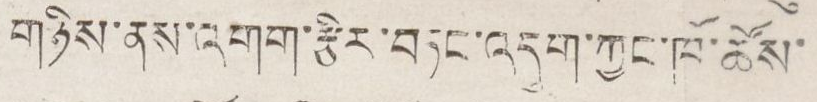གཉིས་ནས་འགག་རྩིར་བཏང་འདུག་ཀྱང་ཁོ་ཚོས་
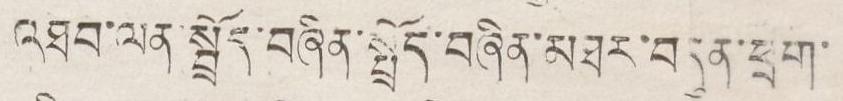འཐབ་ལན་སྦྲོད་བཞིན་སྤྲོད་བཞིན་མཐར་བདུན་ཕྲག་
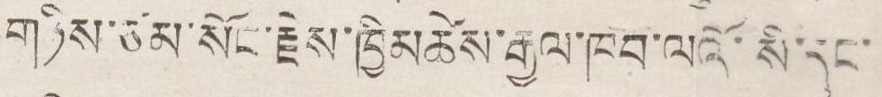གཉིས་ཙམ་སོང་རྗེས་ཁྱིམཚེས་རྒྱལ་ཁབ་ལའོ་སི་དང་
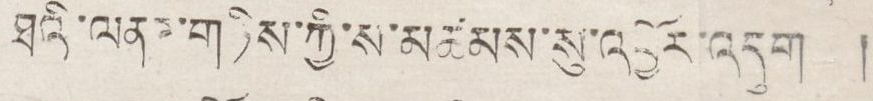ཐའི་ལནཌ་གཉིས་ཀྱི་མཚམས་སུ་འབྱོར་འདུག །
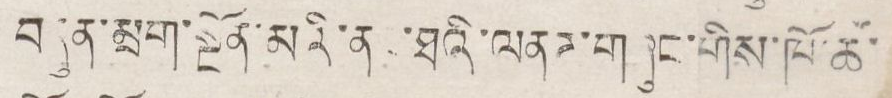བདུན་ཕྲག་སྔོན་མའི་ནང་ཐའི་ལནཌ་གཞུང་གིས་ཁོ་ཚོ་
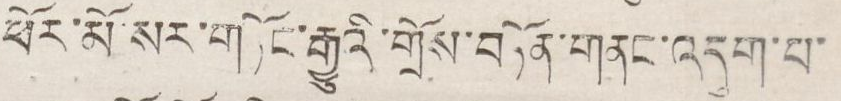ཕོར་མོ་སར་གཏོང་རྒྱུའི་གྲོས་བཏོན་གནང་འདུག་པ་
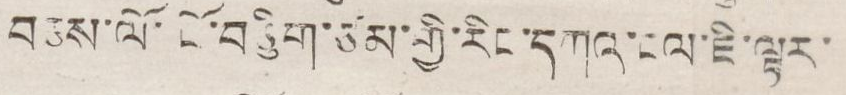བཅས་ལོ་ངོ་བཅིུག་ཙམ་གྱི་རིང་དཀའ་ངལ་ཇི་ལྟར་
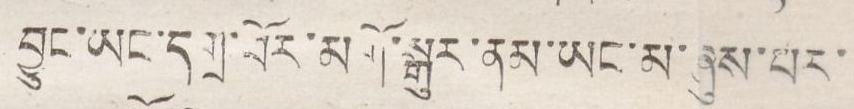བྱུང་ཡང་དགྲ་བོར་མགོ་སྒུར་ནམ་ཡང་མ་ཞུས་པར་
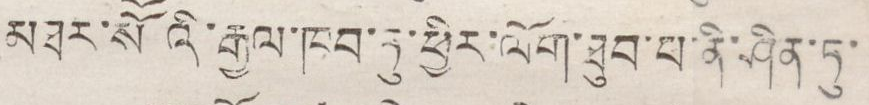མཐར་སཽའི་རྒྱལ་ཁབ་ཏུ་ཕྱིར་ལོག་ཐུབ་པ་ནི་ཤིན་ཏུ་
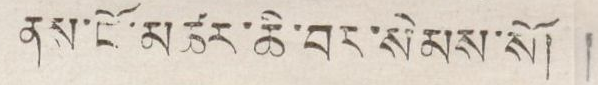ནས་ངོ་མཚར་ཆི་བར་སེམས་སོ། །
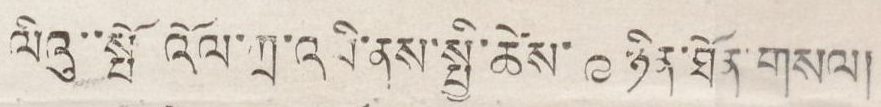ལིའུ་སྤོ འོལ་ཀྲ་འབི་ནས་སྤྱི་ཚེས་ ༩ ཉིན་ཐོན་གསལ།
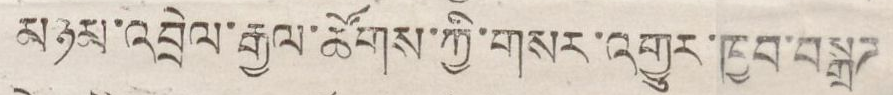མཉམ་འབྲེལ་རྒྱལ་ཚོགས་ཀྱི་གསར་འགྱུར་ཁྱབ་བསྒྲཊ
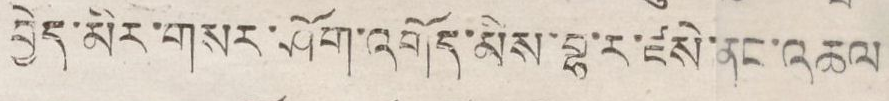བྱེད་མིར་གསར་ཤོག་འགོད་མིས་བྷ་ར་ཛསེ་ནང་འཆལ
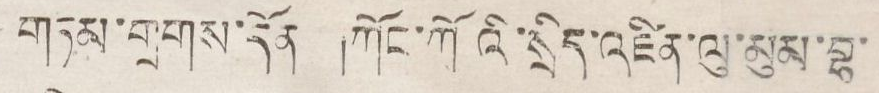གཏམ་གྲགས་དོན །ཀོང་ཀོའི་སྲིད་འཛིན་ལུ་མུམ་བྷ་
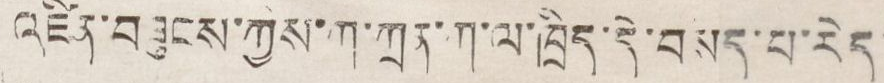འཛིན་བཟུངས་ཀྱིས་ཀ་ཀྲན་ཀ་ལ་ཁྲིད་དེ་བསད་པ་རེད
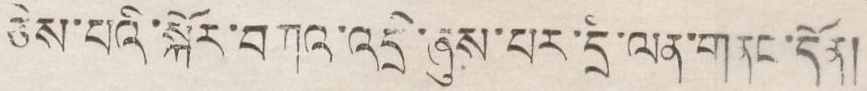ཅེས་པའི་སྐོར་བཀའ་འདྲི་ཞུས་པར་དྲི་ལན་གནང་དོན།
